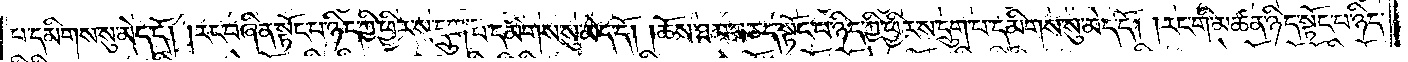པ་དམིགས་སུ་མེད་དོ། །རང་བཞིན་སྟོང་པ་ཉིད་ཀྱི་ཕྱིར་ས་དྲུག་པ་དམིགས་སུ་མེད་དོ། །ཆོས་ཐམས་ཅད་སྟོང་པ་ཉིད་ཀྱི་ཕྱིར་ས་དྲུག་པ་དམིགས་སུ་མེད་དོ། །རང་གི་མཚན་ཉིད་སྟོང་པ་ཉིད་
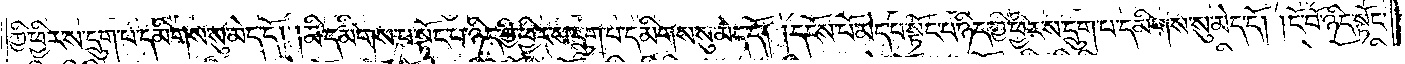ཀྱི་ཕྱིར་ས་དྲུག་པ་དམིགས་སུ་མེད་དོ། །མི་དམིགས་པ་སྟོང་པ་ཉིད་ཀྱི་ཕྱིར་ས་དྲུག་པ་དམིགས་སུ་མེད་དོ། །དངོས་པོ་མེད་པ་སྟོང་པ་ཉིད་ཀྱི་ཕྱིར་ས་དྲུག་པ་དམིགས་སུ་མེད་དོ། །ངོ་བོ་ཉིད་སྟོང་
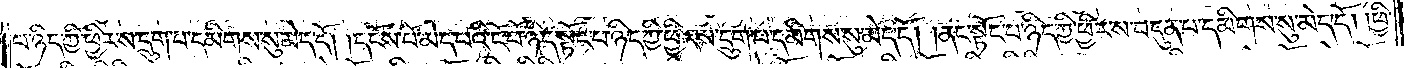པ་ཉིད་ཀྱི་ཕྱིར་ས་དྲུག་པ་དམིགས་སུ་མེད་དོ། །དངོས་པོ་མེད་པའི་ངོ་བོ་ཉིད་སྟོང་པ་ཉིད་ཀྱི་ཕྱིར་ས་དྲུག་པ་དམིགས་སུ་མེད་དོ། །ནང་སྟོང་པ་ཉིད་ཀྱི་ཕྱིར་ས་བདུན་པ་དམིགས་སུ་མེད་དོ། །ཕྱི་
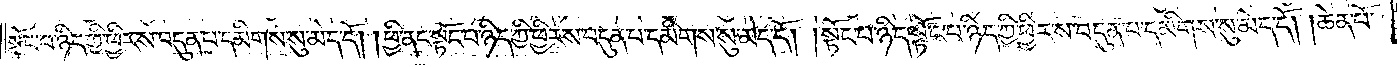སྟོང་པ་ཉིད་ཀྱི་ཕྱིར་ས་བདུན་པ་དམིགས་སུ་མེད་དོ། །ཕྱི་ནང་སྟོང་པ་ཉིད་ཀྱི་ཕྱིར་ས་བདུན་པ་དམིགས་སུ་མེད་དོ། །སྟོང་པ་ཉིད་སྟོང་པ་ཉིད་ཀྱི་ཕྱིར་ས་བདུན་པ་དམིགས་སུ་མེད་དོ། །ཆེན་པོ་
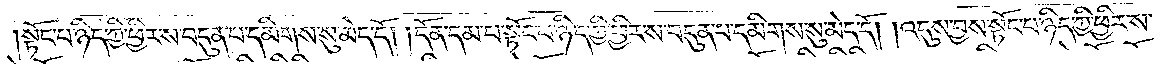སྟོང་པ་ཉིད་ཀྱི་ཕྱིར་ས་བདུན་པ་དམིགས་སུ་མེད་དོ། །དོན་དམ་པ་སྟོང་པ་ཉིད་ཀྱི་ཕྱིར་ས་བདུན་པ་དམིགས་སུ་མེད་དོ། །འདུས་བྱས་སྟོང་པ་ཉིད་ཀྱི་ཕྱིར་ས་
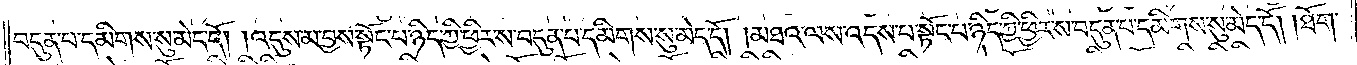བདུན་པ་དམིགས་སུ་མེད་དོ། །འདུས་མ་བྱས་སྟོང་པ་ཉིད་ཀྱི་ཕྱིར་ས་བདུན་པ་དམིགས་སུ་མེད་དོ། །མཐའ་ལས་འདས་པ་སྟོང་པ་ཉིད་ཀྱི་ཕྱིར་ས་བདུན་པ་དམིགས་སུ་མེད་དོ། །ཐོག་
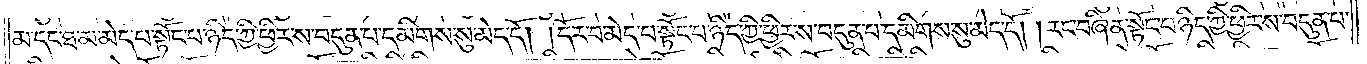མ་དང་ཐ་མ་མེད་པ་སྟོང་པ་ཉིད་ཀྱི་ཕྱིར་ས་བདུན་པ་དམིགས་སུ་མེད་དོ། །དོར་བ་མེད་པ་སྟོང་པ་ཉིད་ཀྱི་ཕྱིར་ས་བདུན་པ་དམིགས་སུ་མེད་དོ། །རང་བཞིན་སྟོང་པ་ཉིད་ཀྱི་ཕྱིར་ས་བདུན་པ་
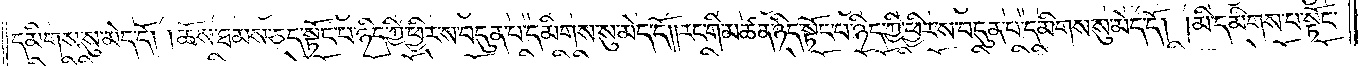དམིགས་སུ་མེད་དོ། །ཆོས་ཐམས་ཅད་སྟོང་པ་ཉིད་ཀྱི་ཕྱིར་ས་བདུན་པ་དམིགས་སུ་མེད་དོ། །རང་གི་མཚན་ཉིད་སྟོང་པ་ཉིད་ཀྱི་ཕྱིར་ས་བདུན་པ་དམིགས་སུ་མེད་དོ། །མི་དམིགས་པ་སྟོང་
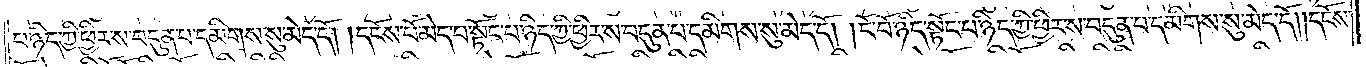པ་ཉིད་ཀྱི་ཕྱིར་ས་བདུན་པ་དམིགས་སུ་མེད་དོ། །དངོས་པོ་མེད་པ་སྟོང་པ་ཉིད་ཀྱི་ཕྱིར་ས་བདུན་པ་དམིགས་སུ་མེད་དོ། །ངོ་བོ་ཉིད་སྟོང་པ་ཉིད་ཀྱི་ཕྱིར་ས་བདུན་པ་དམིགས་སུ་མེད་དོ། །དངོས་
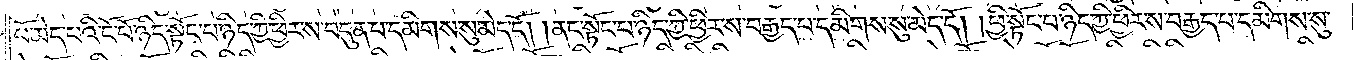པོ་མེད་པའི་ངོ་བོ་ཉིད་སྟོང་པ་ཉིད་ཀྱི་ཕྱིར་ས་བདུན་པ་དམིགས་སུ་མེད་དོ། །ནང་སྟོང་པ་ཉིད་ཀྱི་ཕྱིར་ས་བརྒྱད་པ་དམིགས་སུ་མེད་དོ། །ཕྱི་སྟོང་པ་ཉིད་ཀྱི་ཕྱིར་ས་བརྒྱད་པ་དམིགས་སུ་
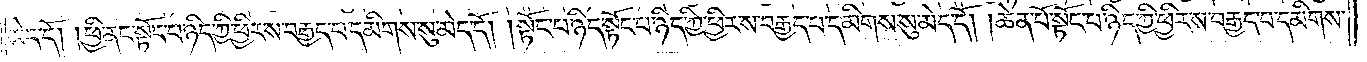མེད་དོ། །ཕྱི་ནང་སྟོང་པ་ཉིད་ཀྱི་ཕྱིར་ས་བརྒྱད་པ་དམིགས་སུ་མེད་དོ། །སྟོང་པ་ཉིད་སྟོང་པ་ཉིད་ཀྱི་ཕྱིར་ས་བརྒྱད་པ་དམིགས་སུ་མེད་དོ། །ཆེན་པོ་སྟོང་པ་ཉིད་ཀྱི་ཕྱིར་ས་བརྒྱད་པ་དམིགས་
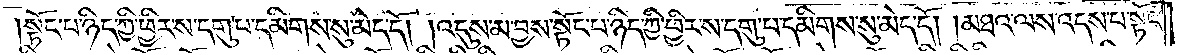སྟོང་པ་ཉིད་ཀྱི་ཕྱིར་ས་དགུ་པ་དམིགས་སུ་མེད་དོ། །འདུས་མ་བྱས་སྟོང་པ་ཉིད་ཀྱི་ཕྱིར་ས་དགུ་པ་དམིགས་སུ་མེད་དོ། །མཐའ་ལས་འདས་པ་སྟོང་
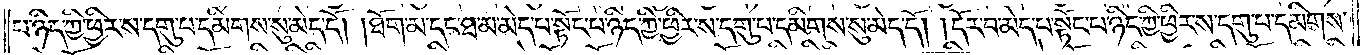པ་ཉིད་ཀྱི་ཕྱིར་ས་དགུ་པ་དམིགས་སུ་མེད་དོ། །ཐོག་མ་དང་ཐ་མ་མེད་པ་སྟོང་པ་ཉིད་ཀྱི་ཕྱིར་ས་དགུ་པ་དམིགས་སུ་མེད་དོ། །དོར་བ་མེད་པ་སྟོང་པ་ཉིད་ཀྱི་ཕྱིར་ས་དགུ་པ་དམིགས་
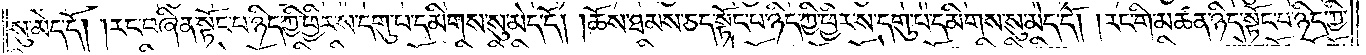སུ་མེད་དོ། །རང་བཞིན་སྟོང་པ་ཉིད་ཀྱི་ཕྱིར་ས་དགུ་པ་དམིགས་སུ་མེད་དོ། །ཆོས་ཐམས་ཅད་སྟོང་པ་ཉིད་ཀྱི་ཕྱིར་ས་དགུ་པ་དམིགས་སུ་མེད་དོ། །རང་གི་མཚན་ཉིད་སྟོང་པ་ཉིད་ཀྱི་
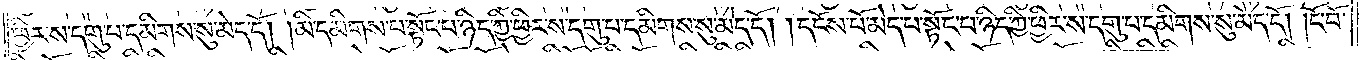ཕྱིར་ས་དགུ་པ་དམིགས་སུ་མེད་དོ། །མི་དམིགས་པ་སྟོང་པ་ཉིད་ཀྱི་ཕྱིར་ས་དགུ་པ་དམིགས་སུ་མེད་དོ། །དངོས་པོ་མེད་པ་སྟོང་པ་ཉིད་ཀྱི་ཕྱིར་ས་དགུ་པ་དམིགས་སུ་མེད་དོ། །ངོ་བོ་
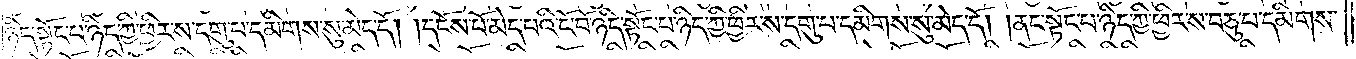ཉིད་སྟོང་པ་ཉིད་ཀྱི་ཕྱིར་ས་དགུ་པ་དམིགས་སུ་མེད་དོ། །དངོས་པོ་མེད་པའི་ངོ་བོ་ཉིད་སྟོང་པ་ཉིད་ཀྱི་ཕྱིར་ས་དགུ་པ་དམིགས་སུ་མེད་དོ། །ནང་སྟོང་པ་ཉིད་ཀྱི་ཕྱིར་ས་བཅུ་པ་དམིགས་
